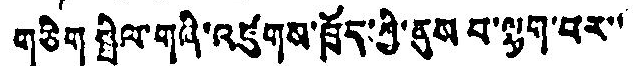གཅིག སྤེལ་གཞི་འཛུགས་ཁྲོད་ཀྱི་ནུས བ་ལྷག་པར་་
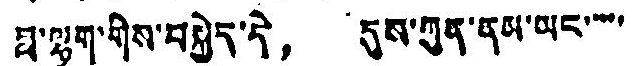བ་ལྷག་གིས་བསྐྱེད་དེ， དུས་ཀུན་ནམ་ཡང་་་་་
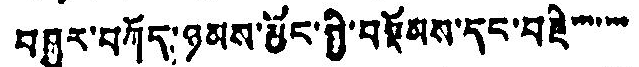བཤྱུར་བཀོད་ཉམས་མྱོང་སྤྱི་བསྡོམས་དང་བརྗེ་་་་་་་་
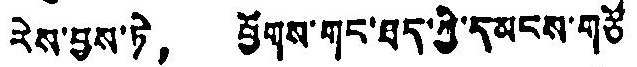རེས་བྱས་ཏེ， ཕྱོགས་གང་ཐད་ཀྱི་དམངས་གཙོ
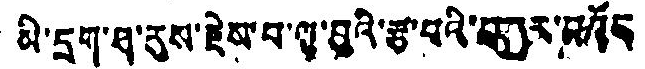མི་དྲག་ཐ་རུས་རྗེས་བ་ལྟ་བུའི་རྩ་བའི་བསྒྱུར་བཀོད
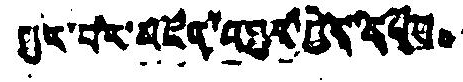རྒྱུར་བར་མངོན་འབྱུར་བྱེད་དཔས。
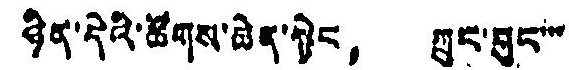ཉིན་དེའི་ཚོགས་ཆེན་སྟེང， ཀྲུང་བུང་་་
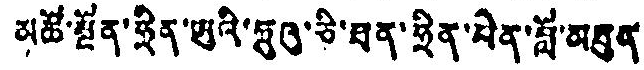མཚོ་སྔོན་ཧྲིན་ཨུའི་ཧྲུའུ་ཅི་ཐན་ཧྲིན་པེན་བློ་མཐུན
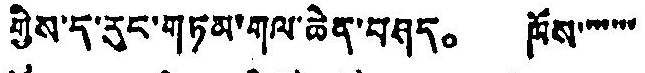གྱིས་ད་རུང་གཏན་གལ་ཆེན་བཤད。 ཁོས་་་་་་་
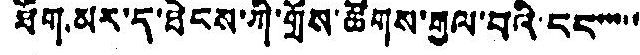ཐོག མར་དུ་ཐེངས་ཀྱི་གྲོས་ཚོགས་རྒྱལ་བའི་ངང་་་་་
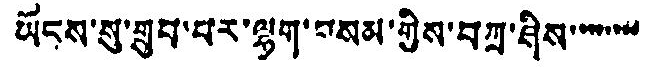ཡོངས་སུ་གྲུབ་པར་ལྷག་བསམ་གྱིས་བཀྲ་ཤིས་་་་་་་་
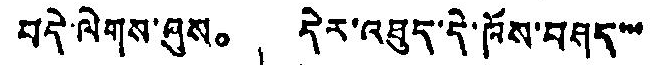བདེ་ལེགས་ཞུས。 དེར་འཐུད་དེ་ཁོས་བཤད་་་
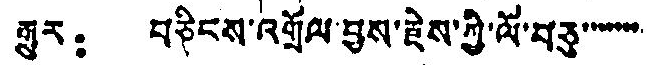རྒྱུར： བཅིངས་འགྲོལ་བྱས་རྗེས་ཀྱི་ལོ་བཅུ་་་་་་་་་
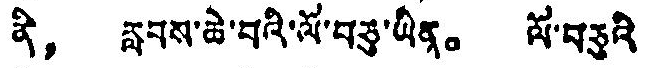ནི， རླབས་ཆེ་བའི་ལོ་བཅུ་ཡིན。 ལོ་བཅུའི་
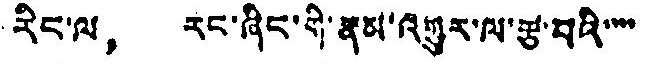རིང་ལ， རང་ཞིང་གི་རྣམ་འགྱུར་ལ་རྩ་བའི་་་་
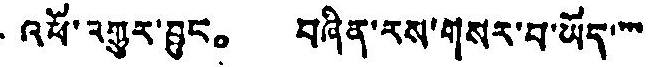འཕོ་འགྱུར་བྱུང。 བཞིན་རས་གསར་བ་ཡོད་་་་
